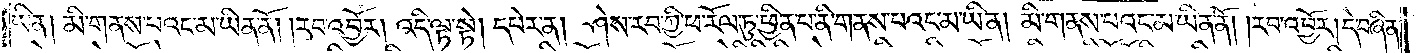ཡིན། མི་གནས་པའང་མ་ཡིན་ནོ། །རབ་འབྱོར། འདི་ལྟ་སྟེ། དཔེར་ན། ཤེས་རབ་ཀྱི་ཕ་རོལ་ཏུ་ཕྱིན་པ་ནི་གནས་པའང་མ་ཡིན། མི་གནས་པའང་མ་ཡིན་ནོ། །རབ་འབྱོར། དེ་བཞིན་
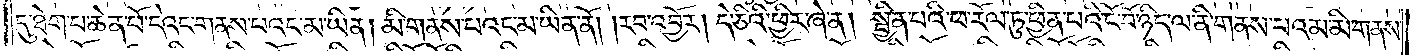དུ་ཐེག་པ་ཆེན་པོ་དེའང་གནས་པའང་མ་ཡིན། མི་གནས་པའང་མ་ཡིན་ནོ། །རབ་འབྱོར། དེ་ཅིའི་ཕྱིར་ཞེ་ན། སྦྱིན་པའི་ཕ་རོལ་ཏུ་ཕྱིན་པའི་ངོ་བོ་ཉིད་ལ་ནི་གནས་པའམ་མི་གནས་
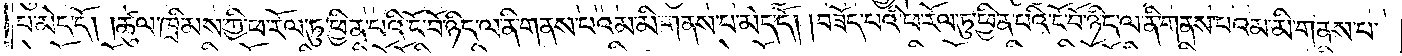པ་མེད་དོ། །ཚུལ་ཁྲིམས་ཀྱི་ཕ་རོལ་ཏུ་ཕྱིན་པའི་ངོ་བོ་ཉིད་ལ་ནི་གནས་པའམ་མི་གནས་པ་མེད་དོ། །བཟོད་པའི་ཕ་རོལ་ཏུ་ཕྱིན་པའི་ངོ་བོ་ཉིད་ལ་ནི་གནས་པའམ་མི་གནས་པ་
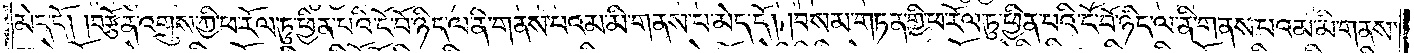མེད་དོ། །བརྩོན་འགྲུས་ཀྱི་ཕ་རོལ་ཏུ་ཕྱིན་པའི་ངོ་བོ་ཉིད་ལ་ནི་གནས་པའམ་མི་གནས་པ་མེད་དོ། །བསམ་གཏན་གྱི་ཕ་རོལ་ཏུ་ཕྱིན་པའི་ངོ་བོ་ཉིད་ལ་ནི་གནས་པའམ་མི་གནས་
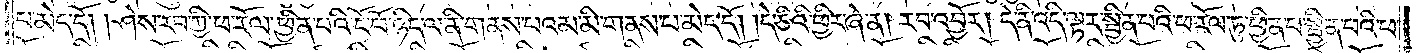པ་མེད་དོ། །ཤེས་རབ་ཀྱི་ཕ་རོལ་ཏུ་ཕྱིན་པའི་ངོ་བོ་ཉིད་ལ་ནི་གནས་པའམ་མི་གནས་པ་མེད་དོ། །དེ་ཅིའི་ཕྱིར་ཞེ་ན། རབ་འབྱོར། དེ་ནི་འདི་ལྟར་སྦྱིན་པའི་ཕ་རོལ་ཏུ་ཕྱིན་པ་སྦྱིན་པའི་ཕ་
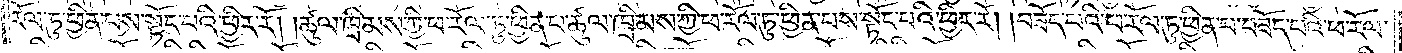རོལ་ཏུ་ཕྱིན་པས་སྟོང་པའི་ཕྱིར་རོ། །ཚུལ་ཁྲིམས་ཀྱི་ཕ་རོལ་ཏུ་ཕྱིན་པ་ཚུལ་ཁྲིམས་ཀྱི་ཕ་རོལ་ཏུ་ཕྱིན་པས་སྟོང་པའི་ཕྱིར་རོ། །བཟོད་པའི་ཕ་རོལ་ཏུ་ཕྱིན་པ་བཟོད་པའི་ཕ་རོལ་
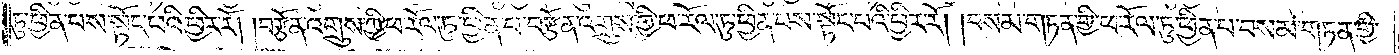ཏུ་ཕྱིན་པས་སྟོང་པའི་ཕྱིར་རོ། །བརྩོན་འགྲུས་ཀྱི་ཕ་རོལ་ཏུ་ཕྱིན་པ་བརྩོན་འགྲུས་ཀྱི་ཕ་རོལ་ཏུ་ཕྱིན་པས་སྟོང་པའི་ཕྱིར་རོ། །བསམ་གཏན་གྱི་ཕ་རོལ་ཏུ་ཕྱིན་པ་བསམ་གཏན་གྱི་
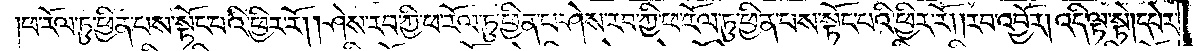ཕ་རོལ་ཏུ་ཕྱིན་པས་སྟོང་པའི་ཕྱིར་རོ། །ཤེས་རབ་ཀྱི་ཕ་རོལ་ཏུ་ཕྱིན་པ་ཤེས་རབ་ཀྱི་ཕ་རོལ་ཏུ་ཕྱིན་པས་སྟོང་པའི་ཕྱིར་རོ། །རབ་འབྱོར། འདི་ལྟ་སྟེ། དཔེར་
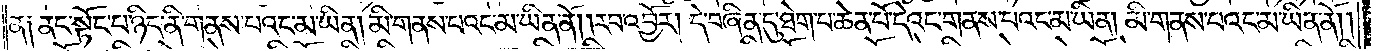ན། ནང་སྟོང་པ་ཉིད་ནི་གནས་པའང་མ་ཡིན། མི་གནས་པའང་མ་ཡིན་ནོ། །རབ་འབྱོར། དེ་བཞིན་དུ་ཐེག་པ་ཆེན་པོ་དེའང་གནས་པའང་མ་ཡིན། མི་གནས་པའང་མ་ཡིན་ནོ། །
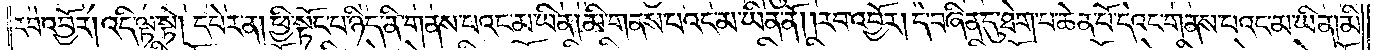རབ་འབྱོར། འདི་ལྟ་སྟེ། དཔེར་ན། ཕྱི་སྟོང་པ་ཉིད་ནི་གནས་པའང་མ་ཡིན། མི་གནས་པའང་མ་ཡིན་ནོ། །རབ་འབྱོར། དེ་བཞིན་དུ་ཐེག་པ་ཆེན་པོ་དེའང་གནས་པའང་མ་ཡིན། མི་
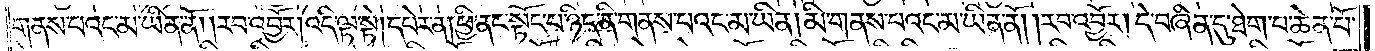གནས་པའང་མ་ཡིན་ནོ། །རབ་འབྱོར། འདི་ལྟ་སྟེ། དཔེར་ན། ཕྱི་ནང་སྟོང་པ་ཉིད་ནི་གནས་པའང་མ་ཡིན། མི་གནས་པའང་མ་ཡིན་ནོ། །རབ་འབྱོར། དེ་བཞིན་དུ་ཐེག་པ་ཆེན་པོ་
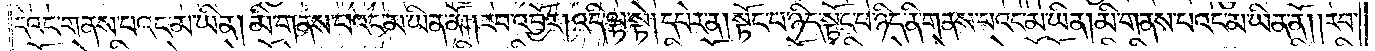དེའང་གནས་པའང་མ་ཡིན། མི་གནས་པའང་མ་ཡིན་ནོ། །རབ་འབྱོར། འདི་ལྟ་སྟེ། དཔེར་ན། སྟོང་པ་ཉིད་སྟོང་པ་ཉིད་ནི་གནས་པའང་མ་ཡིན། མི་གནས་པའང་མ་ཡིན་ནོ། །རབ་
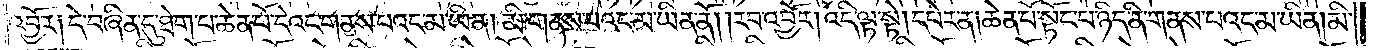འབྱོར། དེ་བཞིན་དུ་ཐེག་པ་ཆེན་པོ་དེའང་གནས་པའང་མ་ཡིན། མི་གནས་པའང་མ་ཡིན་ནོ། །རབ་འབྱོར། འདི་ལྟ་སྟེ། དཔེར་ན། ཆེན་པོ་སྟོང་པ་ཉིད་ནི་གནས་པའང་མ་ཡིན། མི་
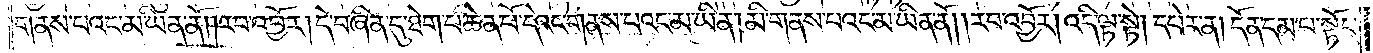གནས་པའང་མ་ཡིན་ནོ། །རབ་འབྱོར། དེ་བཞིན་དུ་ཐེག་པ་ཆེན་པོ་དེའང་གནས་པའང་མ་ཡིན། མི་གནས་པའང་མ་ཡིན་ནོ། །རབ་འབྱོར། འདི་ལྟ་སྟེ། དཔེར་ན། དོན་དམ་པ་སྟོང་
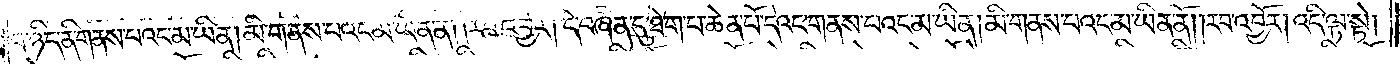པ་ཉིད་ནི་གནས་པའང་མ་ཡིན། མི་གནས་པའང་མ་ཡིན་ནོ། །རབ་འབྱོར། དེ་བཞིན་དུ་ཐེག་པ་ཆེན་པོ་དེའང་གནས་པའང་མ་ཡིན། མི་གནས་པའང་མ་ཡིན་ནོ། །རབ་འབྱོར། འདི་ལྟ་སྟེ།
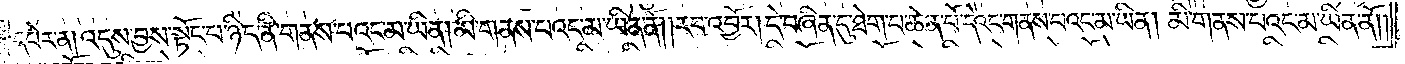དཔེར་ན། འདུས་བྱས་སྟོང་པ་ཉིད་ནི་གནས་པའང་མ་ཡིན། མི་གནས་པའང་མ་ཡིན་ནོ། །རབ་འབྱོར། དེ་བཞིན་དུ་ཐེག་པ་ཆེན་པོ་དེའང་གནས་པའང་མ་ཡིན། མི་གནས་པའང་མ་ཡིན་ནོ། །
